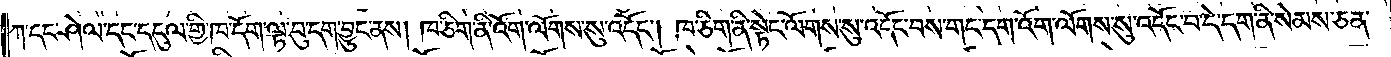ཀ་དང་ཤེལ་དང་དངུལ་གྱི་ཁ་དོག་ལྟ་བུ་དག་བྱུང་ནས། ཁ་ཅིག་ནི་འོག་ལོགས་སུ་འདོང༌། ཁ་ཅིག་ནི་སྟེང་ལོགས་སུ་འདོང་བས་གང་དག་འོག་ལོགས་སུ་འདོང་བ་དེ་དག་ནི་སེམས་ཅན་
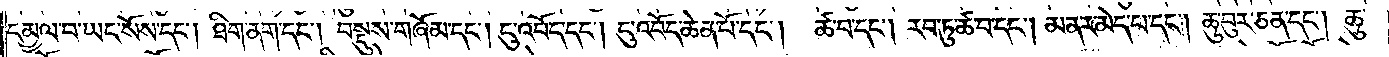དམྱལ་བ་ཡང་སོས་དང༌། ཐིག་ནག་དང༌། བསྡུས་གཞོམ་དང༌། ངུ་འབོད་དང༌། ངུ་འབོད་ཆེན་པོ་དང༌། ཚ་བ་དང༌། རབ་ཏུ་ཚ་བ་དང༌། མནར་མེད་པ་དང༌། ཆུ་བུར་ཅན་དང༌། ཆུ་
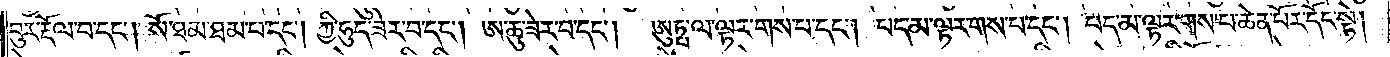བུར་རྡོལ་བ་དང༌། སོ་ཐམ་ཐམ་པ་དང༌། ཀྱི་ཧུད་ཟེར་བ་དང༌། ཨ་ཆུ་ཟེར་བ་དང༌། ཨུཏྤ་ལ་ལྟར་གས་པ་དང༌། པད་མ་ལྟར་གས་པ་དང༌། པད་མ་ལྟར་གས་པ་ཆེན་པོར་དོང་སྟེ།
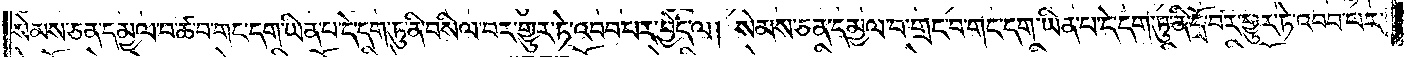སེམས་ཅན་དམྱལ་བ་ཚ་བ་གང་དག་ཡིན་པ་དེ་དག་ཏུ་ནི་བསིལ་བར་གྱུར་ཏེ་འབབ་པར་བྱེད་ལ། སེམས་ཅན་དམྱལ་བ་གྲང་བ་གང་དག་ཡིན་པ་དེ་དག་ཏུ་ནི་དྲོ་བར་གྱུར་ཏེ་འབབ་པར་
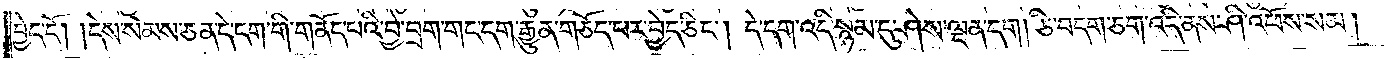བྱེད་དོ། །དེས་སེམས་ཅན་དེ་དག་གི་གནོད་པའི་བྱེ་བྲག་གང་དག་རྒྱུན་གཅོད་པར་བྱེད་ཅིང༌། དེ་དག་འདི་སྙམ་དུ་ཤེས་ལྡན་དག །ཅི་བདག་ཅག་འདི་ནས་ཤི་འཕོས་སམ།
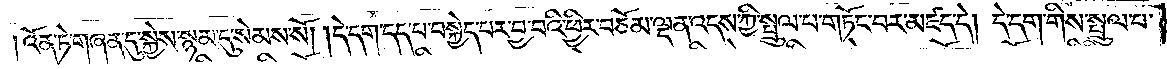འོན་ཏེ་གཞན་དུ་སྐྱེས་སྙམ་དུ་སེམས་སོ། །དེ་དག་དད་པ་བསྐྱེད་པར་བྱ་བའི་ཕྱིར་བཅོམ་ལྡན་འདས་ཀྱི་སྤྲུལ་པ་གཏོང་བར་མཛད་དེ། དེ་དག་གིས་སྤྲུལ་པ་
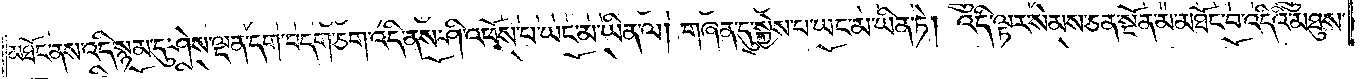མཐོང་ནས་འདི་སྙམ་དུ་ཤེས་ལྡན་དག་བདག་ཅག་འདི་ནས་ཤི་འཕོས་པ་ཡང་མ་ཡིན་ལ། གཞན་དུ་སྐྱེས་པ་ཡང་མ་ཡིན་ཏེ། འདི་ལྟར་སེམས་ཅན་སྔོན་མ་མཐོང་བ་འདིའི་མཐུས་
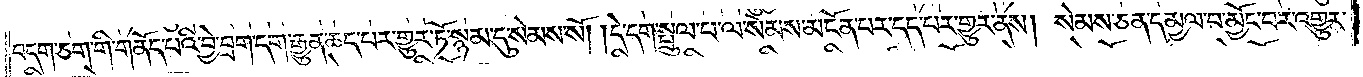བདག་ཅག་གི་གནོད་པའི་བྱེ་བྲག་དག་རྒྱུན་ཆད་པར་གྱུར་ཏོ་སྙམ་དུ་སེམས་སོ། །དེ་དག་སྤྲུལ་པ་ལ་སེམས་མངོན་པར་དད་པར་གྱུར་ནས། སེམས་ཅན་དམྱལ་བ་མྱོང་བར་འགྱུར་
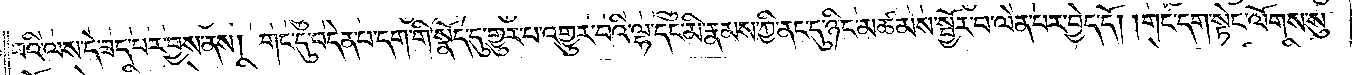བའི་ལས་དེ་ཟད་པར་བྱས་ནས། གང་དུ་བདེན་པ་དག་གི་སྣོད་དུ་གྱུར་པ་འགྱུར་བའི་ལྷ་དང་མི་རྣམས་ཀྱི་ནང་དུ་ཉིང་མཚམས་སྦྱོར་བ་ལེན་པར་བྱེད་དོ། །གང་དག་སྟེང་ལོགས་སུ་
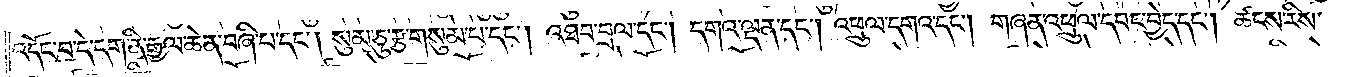འདོང་བ་དེ་དག་ནི་རྒྱལ་ཆེན་བཞི་པ་དང༌། སུམ་ཅུ་རྩ་གསུམ་པ་དང༌། འཐབ་བྲལ་དང༌། དགའ་ལྡན་དང༌། འཕྲུལ་དགའ་དང༌། གཞན་འཕྲུལ་དབང་བྱེད་དང༌། ཚངས་རིས་
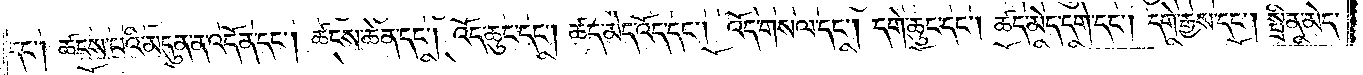དང༌། ཚངས་པའི་མདུན་ན་འདོན་དང༌། ཚངས་ཆེན་དང༌། འོད་ཆུང་དང༌། ཚད་མེད་འོད་དང༌། འོད་གསལ་དང༌། དགེ་ཆུང་དང༌། ཚད་མེད་དགེ་དང༌། དགེ་རྒྱས་དང༌། སྤྲིན་མེད་
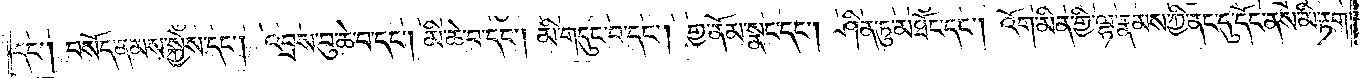དང༌། བསོད་ནམས་སྐྱེས་དང༌། འབྲས་བུ་ཆེ་བ་དང༌། མི་ཆེ་བ་དང༌། མི་གདུང་བ་དང༌། གྱ་ནོམ་སྣང་དང༌། ཤིན་ཏུ་མཐོང་དང༌། འོག་མིན་གྱི་ལྷ་རྣམས་ཀྱི་ནང་དུ་དོང་ནས་མི་རྟག་
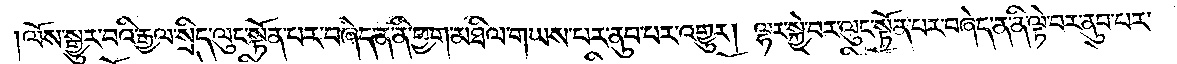ལོས་སྒྱུར་བའི་རྒྱལ་སྲིད་ལུང་སྟོན་པར་བཞེད་ན་ནི་ཕྱག་མཐིལ་གཡས་པར་ནུབ་པར་འགྱུར། ལྷར་སྐྱེ་བར་ལུང་སྟོན་པར་བཞེད་ན་ནི་ལྟེ་བར་ནུབ་པར་
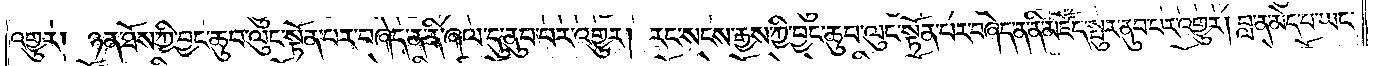འགྱུར། ཉན་ཐོས་ཀྱི་བྱང་ཆུབ་ལུང་སྟོན་པར་བཞེད་ན་ནི་ཞལ་དུ་ནུབ་པར་འགྱུར། རང་སངས་རྒྱས་ཀྱི་བྱང་ཆུབ་ལུང་སྟོན་པར་བཞེད་ན་ནི་མཛོད་སྤུར་ནུབ་པར་འགྱུར། བླ་ན་མེད་པ་ཡང་
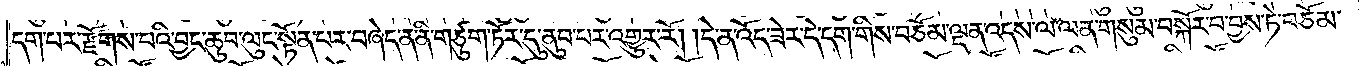དག་པར་རྫོགས་པའི་བྱང་ཆུབ་ལུང་སྟོན་པར་བཞེད་ན་ནི་གཙུག་ཏོར་དུ་ནུབ་པར་འགྱུར་རོ། །དེ་ན་འོད་ཟེར་དེ་དག་གིས་བཅོམ་ལྡན་འདས་ལ་ལན་གསུམ་བསྐོར་བ་བྱས་ཏེ་བཅོམ་
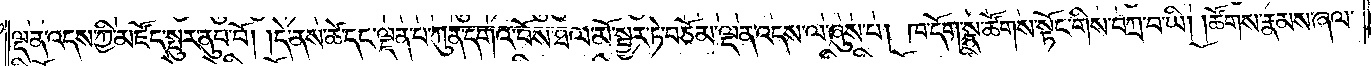ལྡན་འདས་ཀྱི་མཛོད་སྤུར་ནུབ་བོ། །དེ་ནས་ཚེ་དང་ལྡན་པ་ཀུན་དགའ་བོས་ཐལ་མོ་སྦྱར་ཏེ་བཅོམ་ལྡན་འདས་ལ་ཞུས་པ། ཁ་དོག་སྣ་ཚོགས་སྟོང་གིས་བཀྲ་བ་ཡི། །ཚོགས་རྣམས་ཞལ་
